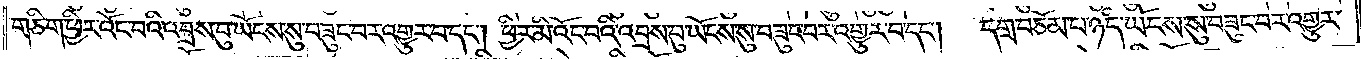གཅིག་ཕྱིར་འོང་བའི་འབྲས་བུ་ཡོངས་སུ་བཟུང་བར་འགྱུར་བ་དང༌། ཕྱིར་མི་འོང་བའི་འབྲས་བུ་ཡོངས་སུ་བཟུང་བར་འགྱུར་བ་དང༌། དགྲ་བཅོམ་པ་ཉིད་ཡོངས་སུ་བཟུང་བར་འགྱུར་
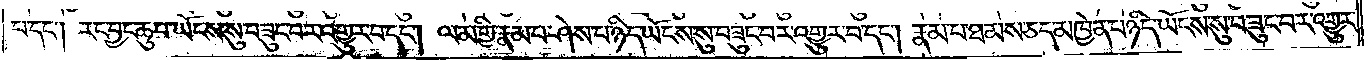བ་དང༌། རང་བྱང་ཆུབ་ཡོངས་སུ་བཟུང་བར་འགྱུར་བ་དང༌། ལམ་གྱི་རྣམ་པ་ཤེས་པ་ཉིད་ཡོངས་སུ་བཟུང་བར་འགྱུར་བ་དང༌། རྣམ་པ་ཐམས་ཅད་མཁྱེན་པ་ཉིད་ཡོངས་སུ་བཟུང་བར་འགྱུར་
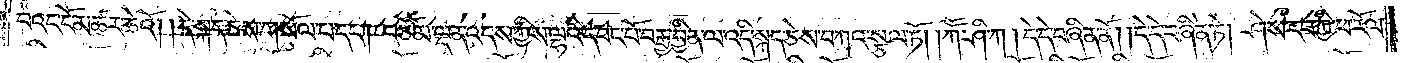བའང་ངོ་མཚར་ཆེའོ། །དེ་སྐད་ཅེས་གསོལ་པ་དང༌། བཅོམ་ལྡན་འདས་ཀྱིས་ལྷའི་དབང་པོ་བརྒྱ་བྱིན་ལ་འདི་སྐད་ཅེས་བཀའ་སྩལ་ཏོ། །ཀཽ་ཤི་ཀ། དེ་དེ་བཞིན་ནོ། །དེ་དེ་བཞིན་ཏེ། ཤེས་རབ་ཀྱི་ཕ་རོལ་
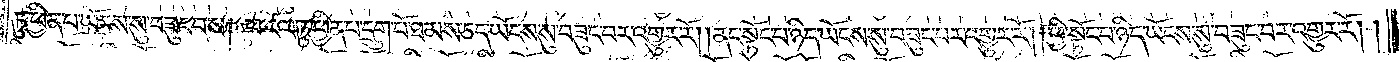ཏུ་ཕྱིན་པ་ཡོངས་སུ་བཟུང་བས། ཕ་རོལ་ཏུ་ཕྱིན་པ་དྲུག་པོ་ཐམས་ཅད་ཡོངས་སུ་བཟུང་བར་འགྱུར་རོ། །ནང་སྟོང་པ་ཉིད་ཡོངས་སུ་བཟུང་བར་འགྱུར་རོ། །ཕྱི་སྟོང་པ་ཉིད་ཡོངས་སུ་བཟུང་བར་འགྱུར་རོ། །
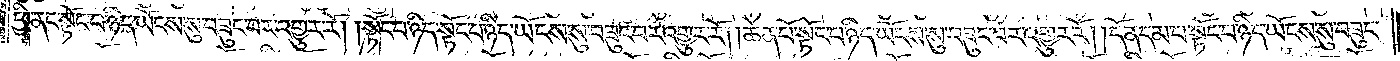ཕྱི་ནང་སྟོང་པ་ཉིད་ཡོངས་སུ་བཟུང་བར་འགྱུར་རོ། །སྟོང་པ་ཉིད་སྟོང་པ་ཉིད་ཡོངས་སུ་བཟུང་བར་འགྱུར་རོ། །ཆེན་པོ་སྟོང་པ་ཉིད་ཡོངས་སུ་བཟུང་བར་འགྱུར་རོ། །དོན་དམ་པ་སྟོང་པ་ཉིད་ཡོངས་སུ་བཟུང་
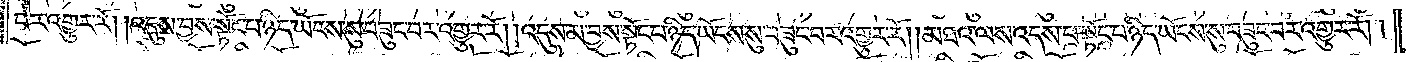བར་འགྱུར་རོ། །འདུས་བྱས་སྟོང་པ་ཉིད་ཡོངས་སུ་བཟུང་བར་འགྱུར་རོ། །འདུས་མ་བྱས་སྟོང་པ་ཉིད་ཡོངས་སུ་བཟུང་བར་འགྱུར་རོ། །མཐའ་ལས་འདས་པ་སྟོང་པ་ཉིད་ཡོངས་སུ་བཟུང་བར་འགྱུར་རོ། །
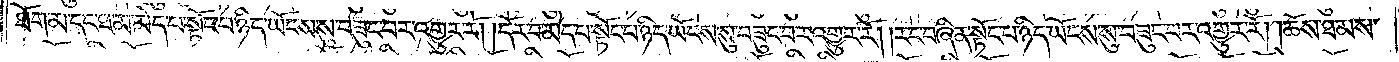ཐོག་མ་དང་ཐ་མ་མེད་པ་སྟོང་པ་ཉིད་ཡོངས་སུ་བཟུང་བར་འགྱུར་རོ། །དོར་བ་མེད་པ་སྟོང་པ་ཉིད་ཡོངས་སུ་བཟུང་བར་འགྱུར་རོ། །རང་བཞིན་སྟོང་པ་ཉིད་ཡོངས་སུ་བཟུང་བར་འགྱུར་རོ། །ཆོས་ཐམས་
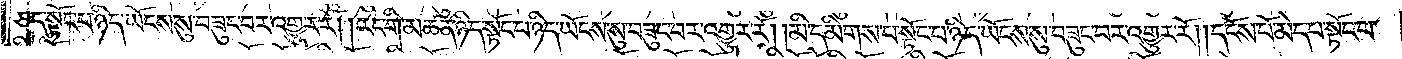ཅད་སྟོང་པ་ཉིད་ཡོངས་སུ་བཟུང་བར་འགྱུར་རོ། །རང་གི་མཚན་ཉིད་སྟོང་པ་ཉིད་ཡོངས་སུ་བཟུང་བར་འགྱུར་རོ། །མི་དམིགས་པ་སྟོང་པ་ཉིད་ཡོངས་སུ་བཟུང་བར་འགྱུར་རོ། །དངོས་པོ་མེད་པ་སྟོང་པ་
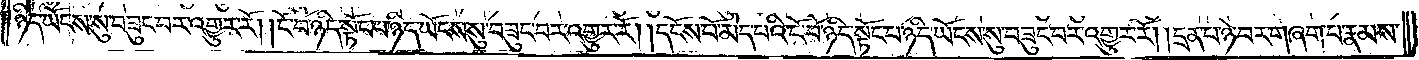ཉིད་ཡོངས་སུ་བཟུང་བར་འགྱུར་རོ། །ངོ་བོ་ཉིད་སྟོང་པ་ཉིད་ཡོངས་སུ་བཟུང་བར་འགྱུར་རོ། །དངོས་པོ་མེད་པའི་ངོ་བོ་ཉིད་སྟོང་པ་ཉིད་ཡོངས་སུ་བཟུང་བར་འགྱུར་རོ། །དྲན་པ་ཉེ་བར་གཞག་པ་རྣམས་
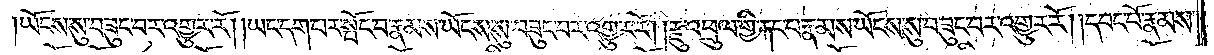ཡོངས་སུ་བཟུང་བར་འགྱུར་རོ། །ཡང་དག་པར་སྤོང་བ་རྣམས་ཡོངས་སུ་བཟུང་བར་འགྱུར་རོ། །རྫུ་འཕྲུལ་གྱི་རྐང་པ་རྣམས་ཡོངས་སུ་བཟུང་བར་འགྱུར་རོ། །དབང་པོ་རྣམས་
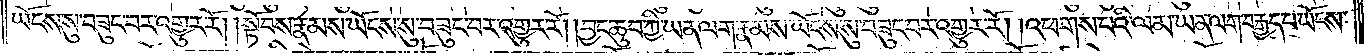ཡོངས་སུ་བཟུང་བར་འགྱུར་རོ། །སྟོབས་རྣམས་ཡོངས་སུ་བཟུང་བར་འགྱུར་རོ། །བྱང་ཆུབ་ཀྱི་ཡན་ལག་རྣམས་ཡོངས་སུ་བཟུང་བར་འགྱུར་རོ། །འཕགས་པའི་ལམ་ཡན་ལག་བརྒྱད་པ་ཡོངས་
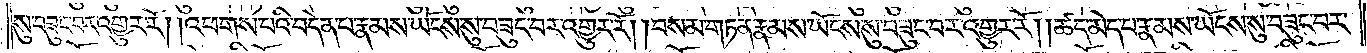སུ་བཟུང་བར་འགྱུར་རོ། །འཕགས་པའི་བདེན་པ་རྣམས་ཡོངས་སུ་བཟུང་བར་འགྱུར་རོ། །བསམ་གཏན་རྣམས་ཡོངས་སུ་བཟུང་བར་འགྱུར་རོ། །ཚད་མེད་པ་རྣམས་ཡོངས་སུ་བཟུང་བར་
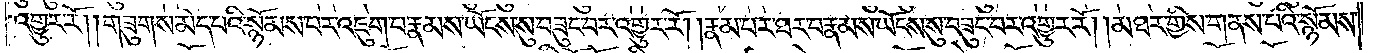འགྱུར་རོ། །གཟུགས་མེད་པའི་སྙོམས་པར་འཇུག་པ་རྣམས་ཡོངས་སུ་བཟུང་བར་འགྱུར་རོ། །རྣམ་པར་ཐར་པ་རྣམས་ཡོངས་སུ་བཟུང་བར་འགྱུར་རོ། །མཐར་གྱིས་གནས་པའི་སྙོམས་
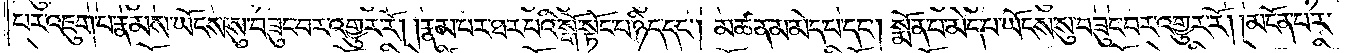པར་འཇུག་པ་རྣམས་ཡོངས་སུ་བཟུང་བར་འགྱུར་རོ། །རྣམ་པར་ཐར་པའི་སྒོ་སྟོང་པ་ཉིད་དང༌། མཚན་མ་མེད་པ་དང༌། སྨོན་པ་མེད་པ་ཡོངས་སུ་བཟུང་བར་འགྱུར་རོ། །མངོན་པར་
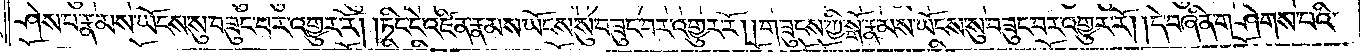ཤེས་པ་རྣམས་ཡོངས་སུ་བཟུང་བར་འགྱུར་རོ། །ཏིང་ངེ་འཛིན་རྣམས་ཡོངས་སུ་བཟུང་བར་འགྱུར་རོ། །གཟུངས་ཀྱི་སྒོ་རྣམས་ཡོངས་སུ་བཟུང་བར་འགྱུར་རོ། །དེ་བཞིན་གཤེགས་པའི་
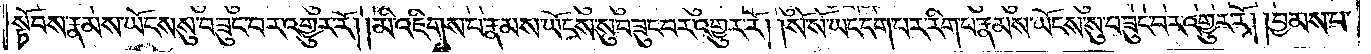སྟོབས་རྣམས་ཡོངས་སུ་བཟུང་བར་འགྱུར་རོ། །མི་འཇིགས་པ་རྣམས་ཡོངས་སུ་བཟུང་བར་འགྱུར་རོ། །སོ་སོ་ཡང་དག་པར་རིག་པ་རྣམས་ཡོངས་སུ་བཟུང་བར་འགྱུར་རོ། །བྱམས་པ་
